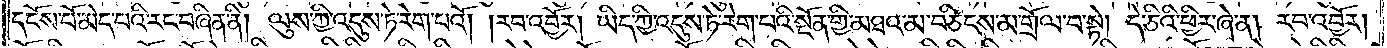དངོས་པོ་མེད་པའི་རང་བཞིན་ནི། ལུས་ཀྱི་འདུས་ཏེ་རེག་པའོ། །རབ་འབྱོར། ཡིད་ཀྱི་འདུས་ཏེ་རེག་པའི་སྔོན་གྱི་མཐའ་མ་བཅིངས་མ་གྲོལ་བ་སྟེ། དེ་ཅིའི་ཕྱིར་ཞེ་ན། རབ་འབྱོར།
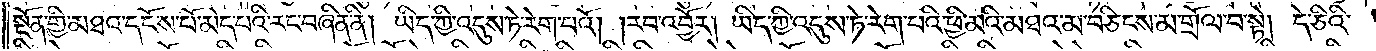སྔོན་གྱི་མཐའ་དངོས་པོ་མེད་པའི་རང་བཞིན་ནི། ཡིད་ཀྱི་འདུས་ཏེ་རེག་པའོ། །རབ་འབྱོར། ཡིད་ཀྱི་འདུས་ཏེ་རེག་པའི་ཕྱི་མའི་མཐའ་མ་བཅིངས་མ་གྲོལ་བ་སྟེ། དེ་ཅིའི་
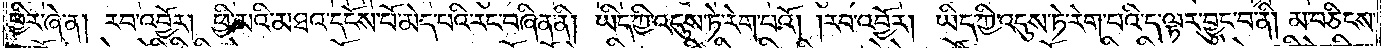ཕྱིར་ཞེ་ན། རབ་འབྱོར། ཕྱི་མའི་མཐའ་དངོས་པོ་མེད་པའི་རང་བཞིན་ནི། ཡིད་ཀྱི་འདུས་ཏེ་རེག་པའོ། །རབ་འབྱོར། ཡིད་ཀྱི་འདུས་ཏེ་རེག་པའི་ད་ལྟར་བྱུང་བ་ནི། མ་བཅིངས་
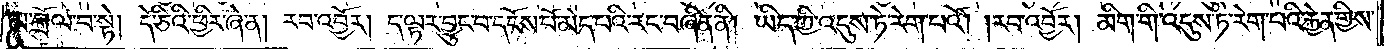མ་གྲོལ་བ་སྟེ། དེ་ཅིའི་ཕྱིར་ཞེ་ན། རབ་འབྱོར། ད་ལྟར་བྱུང་བ་དངོས་པོ་མེད་པའི་རང་བཞིན་ནི། ཡིད་ཀྱི་འདུས་ཏེ་རེག་པའོ། །རབ་འབྱོར། མིག་གི་འདུས་ཏེ་རེག་པའི་རྐྱེན་གྱིས་
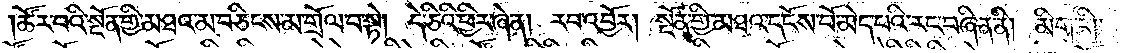ཚོར་བའི་སྔོན་གྱི་མཐའ་མ་བཅིངས་མ་གྲོལ་བ་སྟེ། དེ་ཅིའི་ཕྱིར་ཞེ་ན། རབ་འབྱོར། སྔོན་གྱི་མཐའ་དངོས་པོ་མེད་པའི་རང་བཞིན་ནི། མིག་གི་
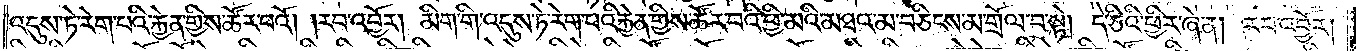འདུས་ཏེ་རེག་པའི་རྐྱེན་གྱིས་ཚོར་བའོ། །རབ་འབྱོར། མིག་གི་འདུས་ཏེ་རེག་པའི་རྐྱེན་གྱིས་ཚོར་བའི་ཕྱི་མའི་མཐའ་མ་བཅིངས་མ་གྲོལ་བ་སྟེ། དེ་ཅིའི་ཕྱིར་ཞེ་ན། རབ་འབྱོར།
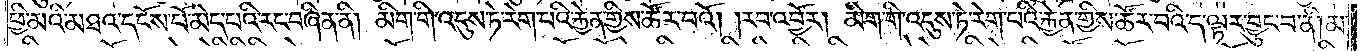ཕྱི་མའི་མཐའ་དངོས་པོ་མེད་པའི་རང་བཞིན་ནི། མིག་གི་འདུས་ཏེ་རེག་པའི་རྐྱེན་གྱིས་ཚོར་བའོ། །རབ་འབྱོར། མིག་གི་འདུས་ཏེ་རེག་པའི་རྐྱེན་གྱིས་ཚོར་བའི་ད་ལྟར་བྱུང་བ་ནི། མ་
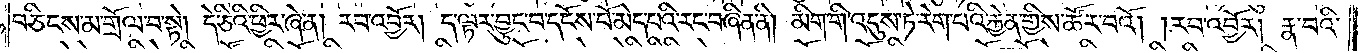བཅིངས་མ་གྲོལ་བ་སྟེ། དེ་ཅིའི་ཕྱིར་ཞེ་ན། རབ་འབྱོར། ད་ལྟར་བྱུང་བ་དངོས་པོ་མེད་པའི་རང་བཞིན་ནི། མིག་གི་འདུས་ཏེ་རེག་པའི་རྐྱེན་གྱིས་ཚོར་བའོ། །རབ་འབྱོར། རྣ་བའི་
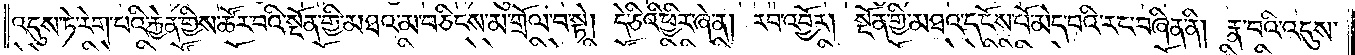འདུས་ཏེ་རེག་པའི་རྐྱེན་གྱིས་ཚོར་བའི་སྔོན་གྱི་མཐའ་མ་བཅིངས་མ་གྲོལ་བ་སྟེ། དེ་ཅིའི་ཕྱིར་ཞེ་ན། རབ་འབྱོར། སྔོན་གྱི་མཐའ་དངོས་པོ་མེད་པའི་རང་བཞིན་ནི། རྣ་བའི་འདུས་
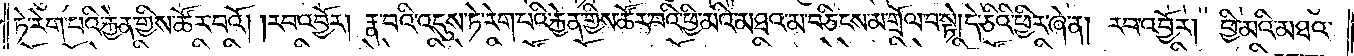ཏེ་རེག་པའི་རྐྱེན་གྱིས་ཚོར་བའོ། །རབ་འབྱོར། རྣ་བའི་འདུས་ཏེ་རེག་པའི་རྐྱེན་གྱིས་ཚོར་བའི་ཕྱི་མའི་མཐའ་མ་བཅིངས་མ་གྲོལ་བ་སྟེ། དེ་ཅིའི་ཕྱིར་ཞེ་ན། རབ་འབྱོར། ཕྱི་མའི་མཐའ་
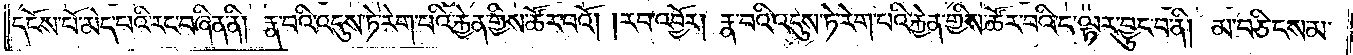དངོས་པོ་མེད་པའི་རང་བཞིན་ནི། རྣ་བའི་འདུས་ཏེ་རེག་པའི་རྐྱེན་གྱིས་ཚོར་བའོ། །རབ་འབྱོར། རྣ་བའི་འདུས་ཏེ་རེག་པའི་རྐྱེན་གྱིས་ཚོར་བའི་དེ་ལྟར་བྱུང་བ་ནི། མ་བཅིངས་མ་
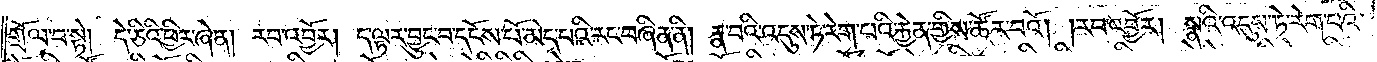གྲོལ་བ་སྟེ། དེ་ཅིའི་ཕྱིར་ཞེ་ན། རབ་འབྱོར། ད་ལྟར་བྱུང་བ་དངོས་པོ་མེད་པའི་རང་བཞིན་ནི། རྣ་བའི་འདུས་ཏེ་རེག་པའི་རྐྱེན་གྱིས་ཚོར་བའོ། །རབ་འབྱོར། སྣའི་འདུས་ཏེ་རེག་པའི་
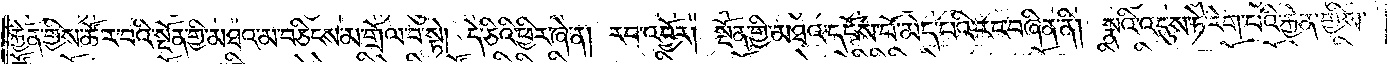རྐྱེན་གྱིས་ཚོར་བའི་སྔོན་གྱི་མཐའ་མ་བཅིངས་མ་གྲོལ་བ་སྟེ། དེ་ཅིའི་ཕྱིར་ཞེ་ན། རབ་འབྱོར། སྔོན་གྱི་མཐའ་དངོས་པོ་མེད་པའི་རང་བཞིན་ནི། སྣའི་འདུས་ཏེ་རེག་པའི་རྐྱེན་གྱིས་
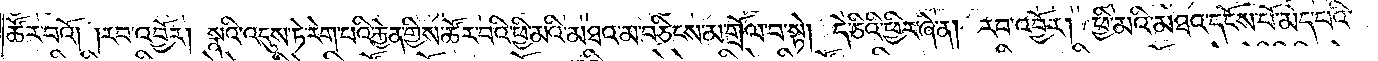ཚོར་བའོ། །རབ་འབྱོར། སྣའི་འདུས་ཏེ་རེག་པའི་རྐྱེན་གྱིས་ཚོར་བའི་ཕྱི་མའི་མཐའ་མ་བཅིངས་མ་གྲོལ་བ་སྟེ། དེ་ཅིའི་ཕྱིར་ཞེ་ན། རབ་འབྱོར། ཕྱི་མའི་མཐའ་དངོས་པོ་མེད་པའི་
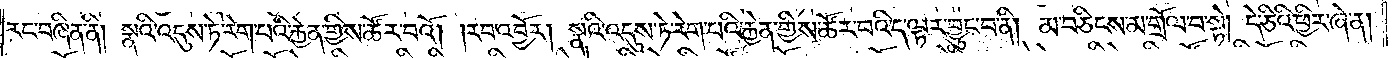རང་བཞིན་ནི། སྣའི་འདུས་ཏེ་རེག་པའི་རྐྱེན་གྱིས་ཚོར་བའོ། །རབ་འབྱོར། སྣའི་འདུས་ཏེ་རེག་པའི་རྐྱེན་གྱིས་ཚོར་བའི་ད་ལྟར་བྱུང་བ་ནི། མ་བཅིངས་མ་གྲོལ་བ་སྟེ། དེ་ཅིའི་ཕྱིར་ཞེ་ན།
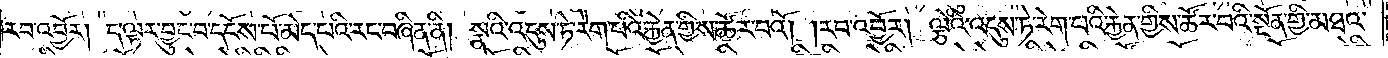རབ་འབྱོར། ད་ལྟར་བྱུང་བ་དངོས་པོ་མེད་པའི་རང་བཞིན་ནི། སྣའི་འདུས་ཏེ་རེག་པའི་རྐྱེན་གྱིས་ཚོར་བའོ། །རབ་འབྱོར། ལྕེའི་འདུས་ཏེ་རེག་པའི་རྐྱེན་གྱིས་ཚོར་བའི་སྔོན་གྱི་མཐའ་
